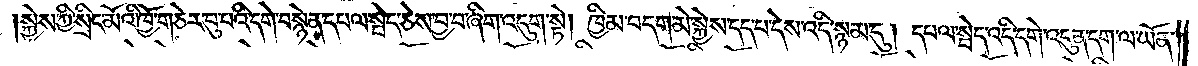སྐྱེས་ཀྱི་སྲིང་མོའི་ཁྱོ་གཅེར་བུ་པའི་དགེ་བསྙེན་དཔལ་སྦེད་ཅེས་བྱ་བ་ཞིག་འདུག་སྟེ། ཁྱིམ་བདག་མེ་སྐྱེས་དད་པ་དེས་འདི་སྙམ་དུ། དཔལ་སྦེད་འདི་དགེ་འདུན་དག་ལ་ཡོན་
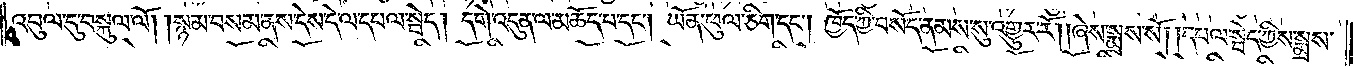འབུལ་དུ་བསྐུལ་ལོ། །སྙམ་བསམ་ནས་དེས་དེ་ལ་དཔལ་སྦེད། དགེ་འདུན་ལ་མཆོད་པ་དང༌། ཡོན་ཕུལ་ཅིག་དང༌། ཁྱོད་ཀྱི་བསོད་ནམས་སུ་འགྱུར་རོ། །ཞེས་སྨྲས་སོ། །དཔལ་སྦེད་ཀྱིས་སྨྲས་
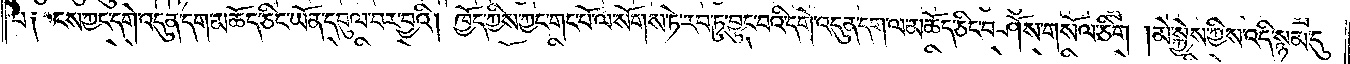པ༑ ངས་ཀྱང་དགེ་འདུན་དག་མཆོད་ཅིང་ཡོན་དབུལ་བར་བྱའོ། ཁྱོད་ཀྱིས་ཀྱང་གང་པོ་ལ་སོགས་ཏེ་རབ་ཏུ་བྱུང་བའི་དགེ་འདུན་དག་ལ་མཆོད་ཅིང་བཤོས་གསོལ་ཅིག །མེ་སྐྱེས་ཀྱིས་འདི་སྙམ་དུ་
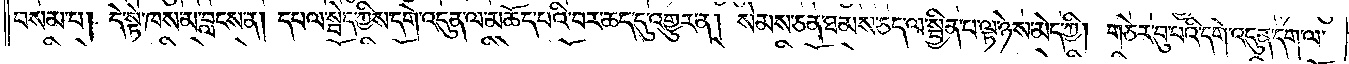བསམ་པ། དེ་སྟེ་ཁས་མ་བླངས་ན། དཔལ་སྦེད་ཀྱིས་དགེ་འདུན་ལ་མཆོད་པའི་བར་ཆད་དུ་འགྱུར་ན། སེམས་ཅན་ཐམས་ཅད་ལ་སྦྱིན་པ་ལྟ་ཉེས་མེད་ཀྱི། གཅེར་བུ་པའི་དགེ་འདུན་དག་ལ་
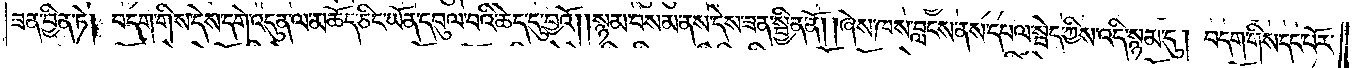ཟན་བྱིན་ཏེ། བདག་གིས་དེས་དགེ་འདུན་ལ་མཆོད་ཅིང་ཡོན་དབུལ་བའི་ཆེད་དུ་བྱའོ། །སྙམ་བསམ་ནས་དེས་ཟན་སྦྱིན་ནོ། །ཞེས་ཁས་བླངས་ནས་དཔལ་སྦེད་ཀྱིས་འདི་སྙམ་དུ། བདག་གིས་དང་པོར་
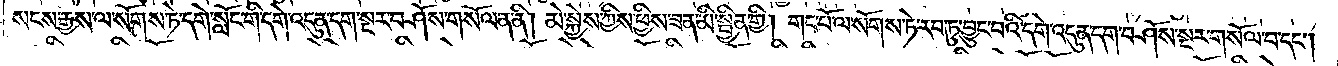སངས་རྒྱས་ལ་སོགས་ཏེ་དགེ་སློང་གི་དགེ་འདུན་དག་སྔར་བཤོས་གསོལ་ན་ནི། མེ་སྐྱེས་ཀྱིས་ཕྱིས་ཟན་མི་སྦྱིན་གྱི། གང་པོ་ལ་སོགས་ཏེ་རབ་ཏུ་བྱུང་བའི་དགེ་འདུན་དག་བཤོས་སྔར་གསོལ་བ་དང༌།
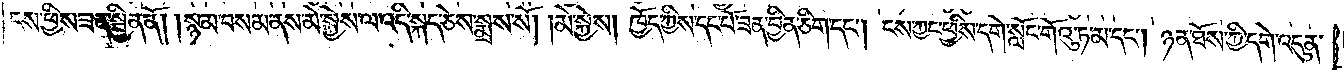ངས་ཕྱིས་ཟན་སྦྱིན་ནོ། །སྙམ་བསམ་ནས་མེ་སྐྱེས་ལ་འདི་སྐད་ཅེས་སྨྲས་སོ། མེ་སྐྱེས། ཁྱོད་ཀྱིས་དང་པོ་ཟན་བྱིན་ཅིག་དང༌། ངས་ཀྱང་ཕྱིས་དགེ་སློང་གོའུ་ཏ་མ་དང༌། ཉན་ཐོས་ཀྱི་དགེ་འདུན་
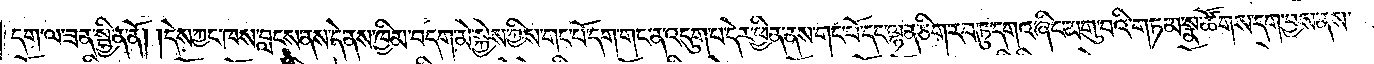དག་ལ་ཟན་སྦྱིན་ནོ། །དེས་ཀྱང་ཁས་བླངས་ནས་དེ་ནས་ཁྱིམ་བདག་མེ་སྐྱེས་ཀྱིས་གང་པོ་དག་གང་ན་འདུག་པ་དེར་ཕྱིན་ནས་གང་པོ་དང་ལྷན་ཅིག་རབ་ཏུ་དགའ་ཞིང་མགུ་བའི་གཏམ་སྣ་ཚོགས་དག་བྱས་ནས་
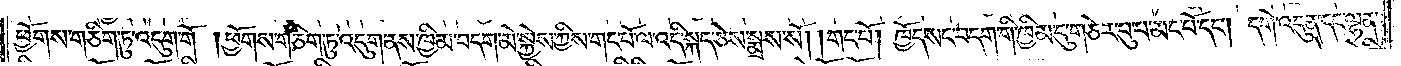ཕྱོགས་གཅིག་ཏུ་འདུག་གོ །ཕྱོགས་གཅིག་ཏུ་འདུག་ནས་ཁྱིམ་བདག་མེ་སྐྱེས་ཀྱིས་གང་པོ་ལ་འདི་སྐད་ཅེས་སྨྲས་སོ། །གང་པོ། ཁྱོད་སང་བདག་གི་ཁྱིམ་དུ་གཅེར་བུ་པ་མང་པོ་དང༌། དགེ་འདུན་དང་ལྷན་
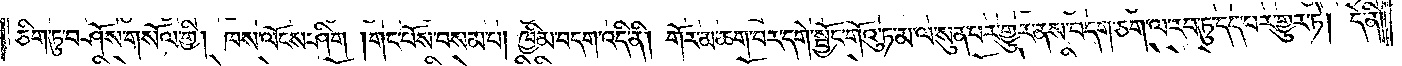ཅིག་ཏུ་བཤོས་གསོལ་གྱི། ཁས་ལོངས་ཤིག །གང་པོས་བསམ་པ། ཁྱིམ་བདག་འདི་ནི། གོར་མ་ཆག་པར་དགེ་སྦྱོང་གོའུ་ཏ་མ་ལ་སུན་པར་གྱུར་ནས་བདག་ཅག་ལ་རབ་ཏུ་དད་པར་གྱུར་ཏེ། དེ་ནི་
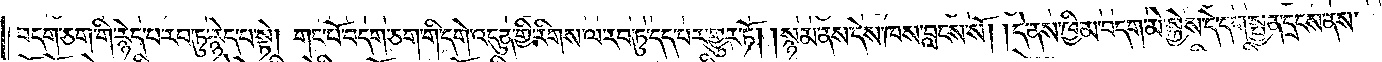བདག་ཅག་གི་རྙེད་པ་རབ་ཏུ་རྙེད་པ་སྟེ། གང་པོ་བདག་ཅག་གི་དགེ་འདུན་གྱི་རིགས་ལ་རབ་ཏུ་དད་པར་གྱུར་ཏོ། །སྙམ་ནས་དེས་ཁས་བླངས་སོ། །དེ་ནས་ཁྱིམ་བདག་མེ་སྐྱེས་དེ་དག་སྤྱན་དྲངས་ནས་
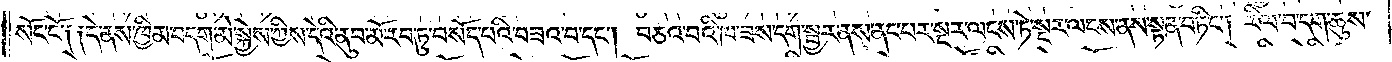སོང་ངོ་༑ ༑དེ་ནས་ཁྱིམ་བདག་མེ་སྐྱེས་ཀྱིས་དེའི་ནུབ་མོ་རབ་ཏུ་བསོད་པའི་བཟའ་བ་དང༌། བཅའ་བའི་ཁ་ཟས་དག་སྦྱར་ནས་ནང་པར་སྔར་ལངས་ཏེ་སྔར་ལངས་ནས་སྟན་བཏིང༌། རིལ་བ་དག་ཆུས་
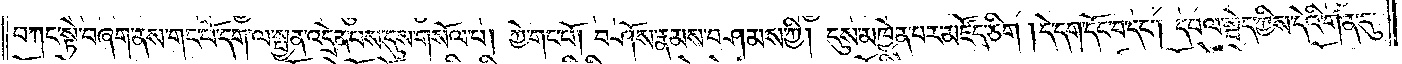བཀང་སྟེ་བཞག་ནས་གང་པོ་དག་ལ་སྤྱན་འདྲེན་པས་དུས་གསོལ་པ། ཀྱེ་གང་པོ། བཤོས་རྣམས་བཤམས་ཀྱི། དུས་མཁྱེན་པར་མཛོད་ཅིག །དེ་དག་དོང་བ་དང༌། དཔལ་སྦེད་ཀྱིས་དེའི་གན་དུ་
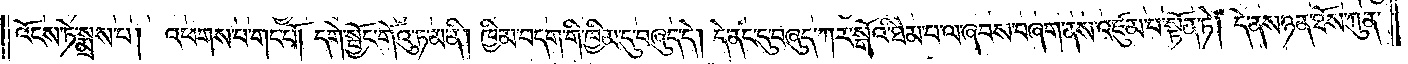འོངས་ཏེ་སྨྲས་པ། འཕགས་པ་གང་པོ། དགེ་སྦྱོང་གོའུ་ཏ་མ་ནི། ཁྱིམ་བདག་གི་ཁྱིམ་དུ་བཞུད་དེ། དེ་ནང་དུ་བཞུད་ཀར་སྒོའི་ཐེམ་པ་ལ་ཞབས་བཞག་ནས་འཛུམ་པ་སྟོན་ཏེ། དེ་ནས་ཉན་ཐོས་ཀུན་
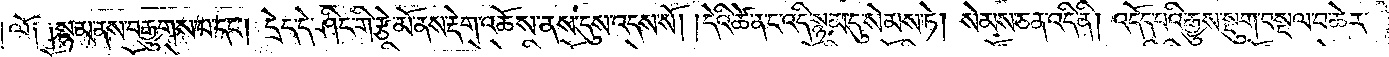ལོ༑ ༑སྙམ་ནས་བརྒྱུགས་པ་དང༌། དྲེད་དེ་ཤིང་གི་རྩེ་མོ་ནས་རྡེག་འཆོས་ནས་དུས་འདས་སོ། །དེའི་ཚེ་ན་ང་འདི་སྙམ་དུ་སེམས་ཏེ། སེམས་ཅན་འདི་ནི། འདོད་པའི་རྒྱུས་སྡུག་བསྔལ་བ་ཆེར་
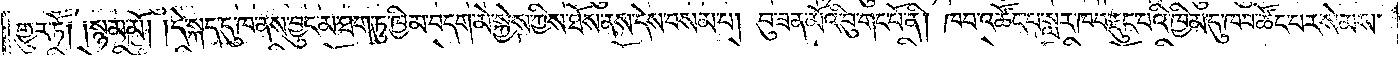གྱུར་ཏོ༑ ༑སྙམ་མོ། །དེ་སྐད་དུ་ཁ་ནས་བྱུང་མ་ཐག་ཏུ་ཁྱིམ་བདག་མེ་སྐྱེས་ཀྱིས་ཐོས་ནས་དེས་བསམ་པ། བུ་ཟན་མོའི་བུ་གང་པོ་ནི། ཁབ་འཚོང་པ་སླར་ཁབ་རྡུང་པའི་ཁྱིམ་དུ་ཁབ་ཚོང་པར་སེམས་
